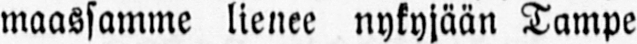maassamme lienee nykyjään Tampe
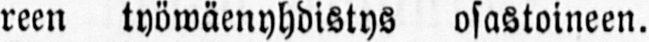reen työwäenyhdistys osastoineen.
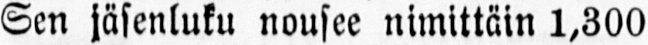Sen jäsenluku nousee nimittäin 1,300
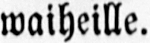waiheille.
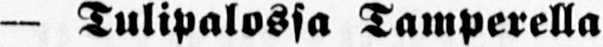— Tulipalossa Tamperella
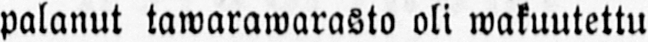palanut tawarawarasto oli wakuutettu
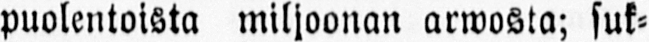puolentoista miljoonan arwosta; suk-
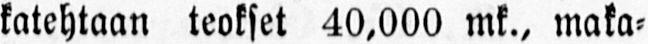katehtaan teokset 40,000 mk., maka-
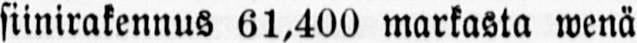siinirakennus 61,400 markasta wenä-
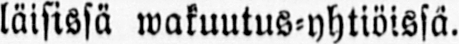läisissä wakuutus-yhtiöissä.
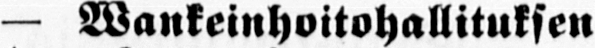— Wankeinhoitohallituksen
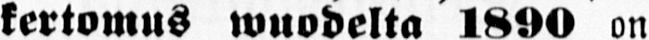kertomus wuodelta 1890 on
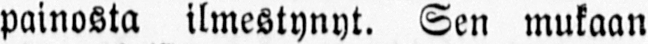painosta ilmestynyt. Sen mukaan
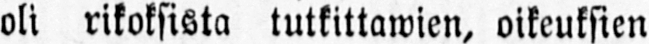oli rikoksista tutkittawien, oikeuksien
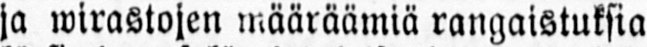ja wirastojen määräämiä rangaistuksia
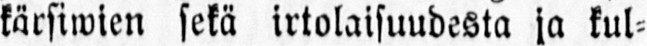kärsiwien sekä irtolaisuudesta ja kul-
